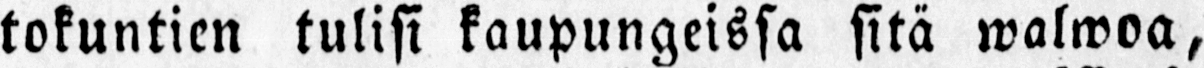tokuntien tulisi kaupungeissa sitä walwoa,
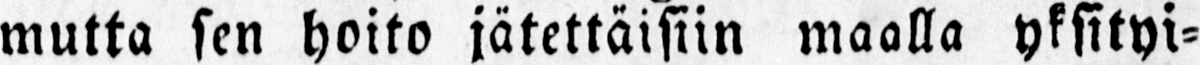mutta sen hoito jätettäisiin maalla yksityi-
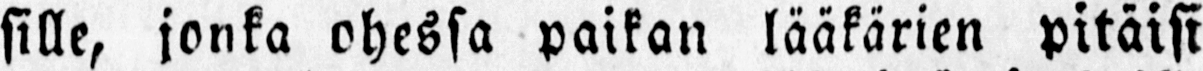sille, jonka ohessa paikan lääkärien pitäisi
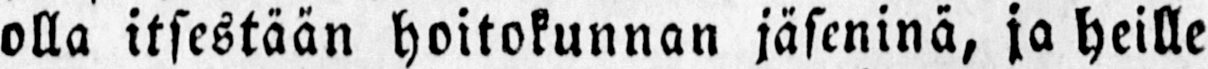olla itsestään hoitokunnan jäseninä, ja heille
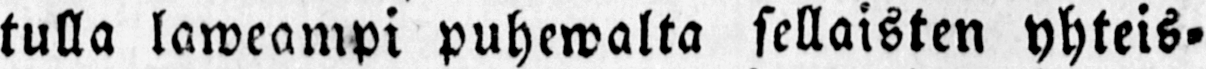tulla laweampi puhewalta sellaisten yhteis-
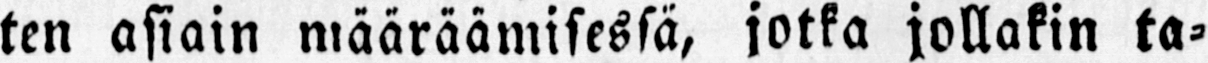ten asiain määräämisessä, jotka jollakin ta-
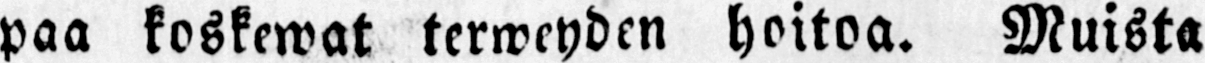paa koskewat terweyden hoitoa. Muista
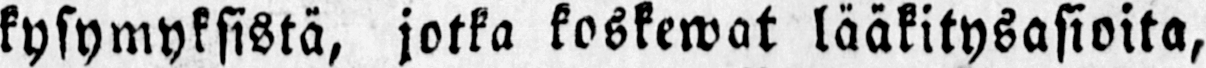kysymyksistä, jotka koskewat lääkitysasioita,
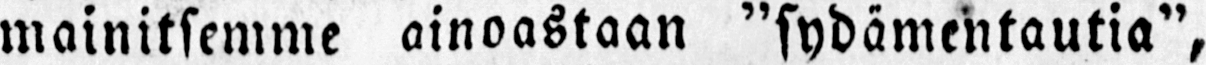mainitsemme ainoastaan "sydämentautia",
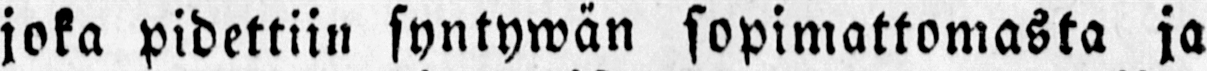joka pidettiin syntywän sopimattomasta ja
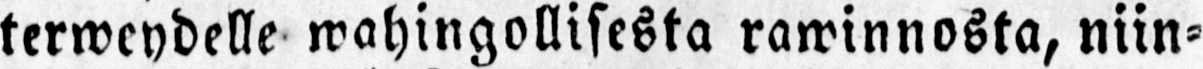terweydelle wahingollisesta rawinnosta, niin-
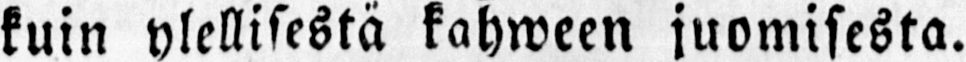kuin ylellisestä kahween juomisesta.
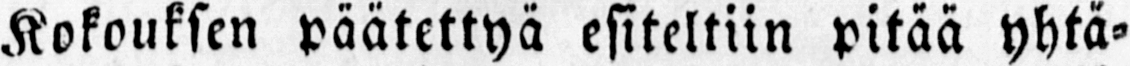Kokouksen päätettyä esiteltiin pitää yhtä-
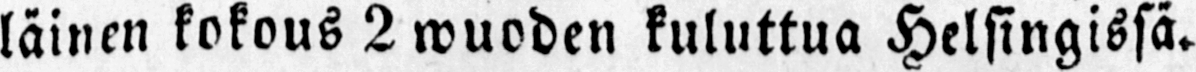läinen kokous 2 wuoden kuluttua Helsingissä.
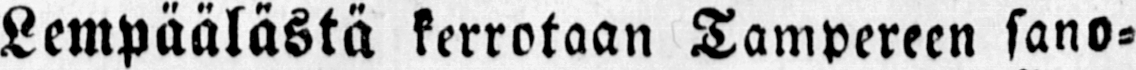Lempäälästä kerrotaan Tampereen sano-
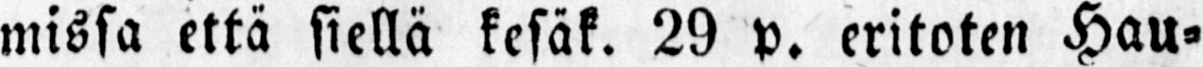missa että siellä kesäk. 29 p. eritoten Hau-
